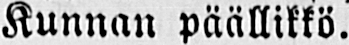Kunnan päällikkö.
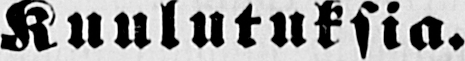Kuulutuksia.
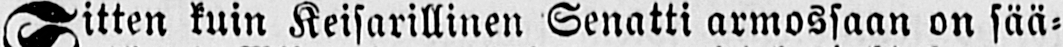Sitten kuin Keisarillinen Senatti armossaan on sää-
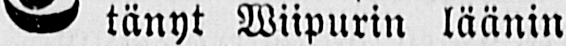tänyt Wiipurin läänin maawiljelysjohtokunnan
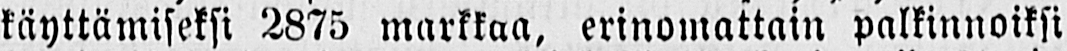käyttämiseksi 2875 markkaa, erinomattain palkinnoiksi
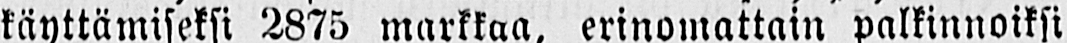hywin järjestyneistä maawiljelyksistä, karjanpidosta ja
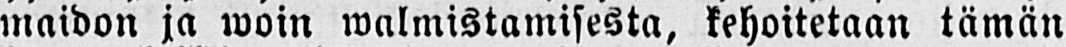maidon jo woin walmistamisesta, kehoitetaan tämän
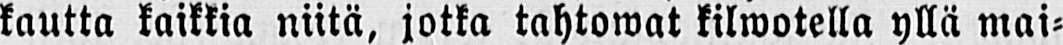kautta kaikkia niitä, jotka tahtowat kilwotella yllä mai-
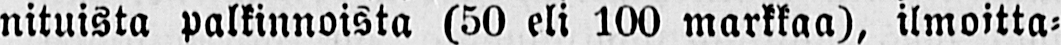nituista palkinnoista (50 eli 100 markkaa), ilmoitta-
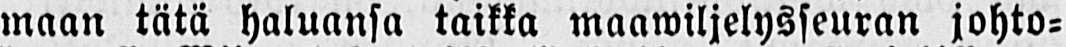maan tätä haluansa taikka maawiljelysseuran johto-
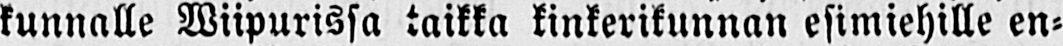kunnalle Wiipurissa taikka kinkerikunnan esimiehille en-
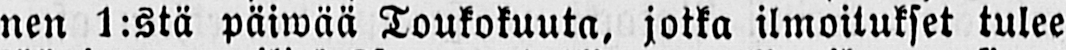nen 1:stä päiwää Toukokuuta, jotka ilmoitukset tulee
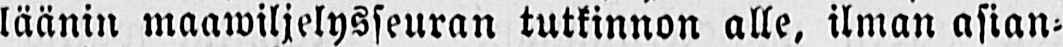läänin maawiljelysseuran tutkinnon alle, ilman asian-
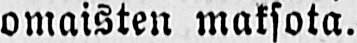omaisten maksota.
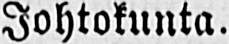Johtokunta.
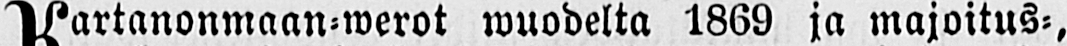Kartanonmaan-werot wuodelta 1869 ja majoitus-,
